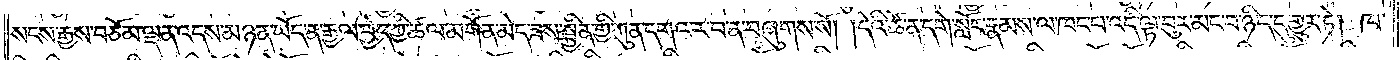སངས་རྒྱས་བཅོམ་ལྡན་འདས་མཉན་ཡོད་ན་རྒྱལ་བྱེད་ཀྱི་ཚལ་མགོན་མེད་ཟས་སྦྱིན་གྱི་ཀུན་དགའ་ར་བ་ན་བཞུགས་སོ། །དེའི་ཚེ་ན་དགེ་སློང་རྣམས་ལ་ཁང་པ་འདི་ལྟ་བུར་མང་བ་ཉིད་དུ་གྱུར་ཏེ། ཁ་
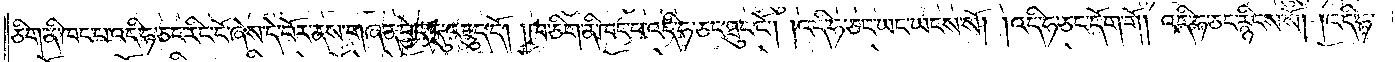ཅིག་ནི་ཁང་པ་འདི་ཧ་ཅང་རིང་ངོ་ཞེས་དེ་བོར་ནས་གཞན་བྱེད་དུ་འཇུད་དོ། །ཁ་ཅིག་ནི་ཁང་པ་འདི་ཧ་ཅང་ཐུང་ངོ༌། །འདི་ཧ་ཅང་ཡང་ཡངས་སོ། །འདི་ཧ་ཅང་དོག་གོ། འདི་ཧ་ཅང་རྙིངས་སོ། །འདི་ཧ་
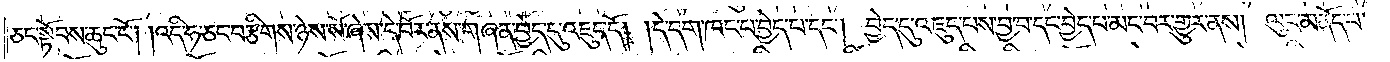ཅང་སྟོབས་ཆུང་ངོ༌། །འདི་ཧ་ཅང་བརྩིགས་ཉེས་སོ་ཞེས་དེ་བོར་ནས་གཞན་བྱེད་དུ་འཇུད་དོ། །དེ་དག་ཁང་པ་བྱེད་པ་དང༌། བྱེད་དུ་འཇུད་པས་བྱ་བ་དང་བྱེད་པ་མང་བར་གྱུར་ནས། ལུང་མནོད་པ་
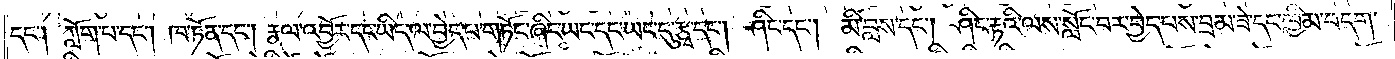དང༌། ཀློག་པ་དང༌། ཁ་ཏོན་དང༌། རྣལ་འབྱོར་དང་ཡིད་ལ་བྱེད་པ་གཏོང་ཞིང་ཡང་དང་ཡང་དུ་རྩྭ་དང༌། ཤིང་དང༌། མི་བླས་དང༌། ཤིང་རྟའི་ལས་སློང་བར་བྱེད་པས་བྲམ་ཟེ་དང་ཁྱིམ་བདག་
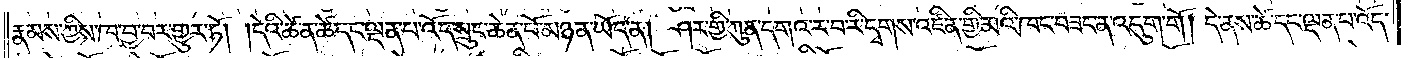རྣམས་ཀྱིས་ཁ་བྱ་བར་གྱུར་ཏོ། །དེའི་ཚེ་ན་ཚེ་དང་ལྡན་པ་འོད་སྲུང་ཆེན་པོ་མཉན་ཡོད་ན། ཤར་གྱི་ཀུན་དགའ་ར་བ་རི་དྭགས་འཛིན་གྱི་མའི་ཁང་བཟང་ན་འདུག་གོ། དེ་ནས་ཚེ་དང་ལྡན་པ་འོད་
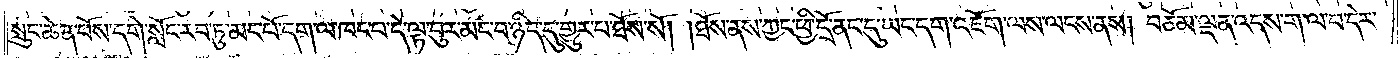སྲུང་ཆེན་པོས་དགེ་སློང་རབ་ཏུ་མང་པོ་དག་ལ་ཁང་པ་དེ་ལྟ་བུར་མང་བ་ཉིད་དུ་གྱུར་པ་ཐོས་སོ། །ཐོས་ནས་ཀྱང་ཕྱི་དྲོ་ནང་དུ་ཡང་དག་འཇོག་ལས་ལངས་ནས། བཅོམ་ལྡན་འདས་ག་ལ་བ་དེར་
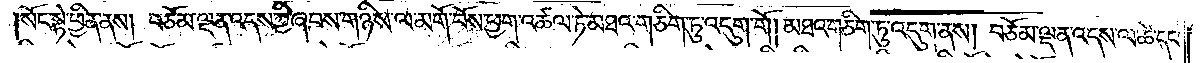སོང་སྟེ་ཕྱིན་ནས། བཅོམ་ལྡན་འདས་ཀྱི་ཞབས་གཉིས་ལ་མགོ་བོས་ཕྱག་འཚལ་ཏེ་མཐའ་གཅིག་ཏུ་འདུག་གོ། མཐའ་གཅིག་ཏུ་འདུག་ནས། བཅོམ་ལྡན་འདས་ལ་ཚེ་དང་
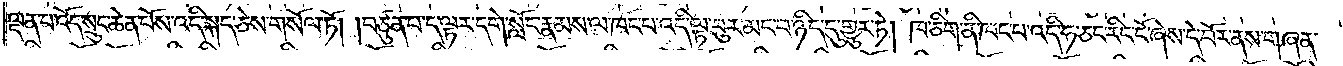ལྡན་པ་འོད་སྲུང་ཆེན་པོས་འདི་སྐད་ཅེས་གསོལ་ཏོ། །བཙུན་པ་ད་ལྟར་དགེ་སློང་རྣམས་ལ་ཁང་པ་འདི་ལྟ་བུར་མང་བ་ཉིད་དུ་གྱུར་ཏེ། ཁ་ཅིག་ནི་ཁང་པ་འདི་ཧ་ཅང་རིང་ངོ་ཞེས་དེ་བོར་ནས་གཞན་
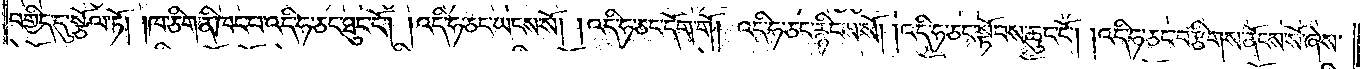བགྱིད་དུ་སྩོལ་ཏོ། །ཁ་ཅིག་ནི་ཁང་པ་འདི་ཧ་ཅང་ཐུང་ངོ༌། །འདི་ཧ་ཅང་ཡངས་སོ། །འདི་ཧ་ཅང་དོག་གོ། །འདི་ཧ་ཅང་རྙིངས་སོ། །འདི་ཧ་ཅང་སྟོབས་ཆུང་ངོ༌། །འདི་ཧ་ཅང་བརྩིགས་ནོངས་སོ་ཞེས་
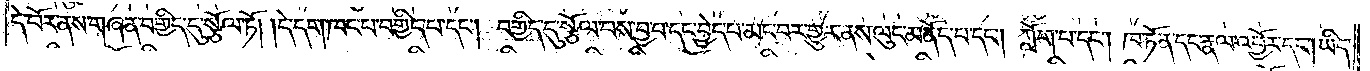དེ་བོར་ནས་གཞན་བགྱིད་དུ་སྩོལ་ཏོ། །དེ་དག་ཁང་པ་བགྱིད་པ་དང༌། བགྱིད་དུ་སྩོལ་བས་བྱ་བ་དང་བྱེད་པ་མང་བར་གྱུར་ནས་ལུང་མནོད་པ་དང༌། ཀློག་པ་དང༌། ཁ་ཏོན་དང་རྣལ་འབྱོར་དང༌། ཡིད་
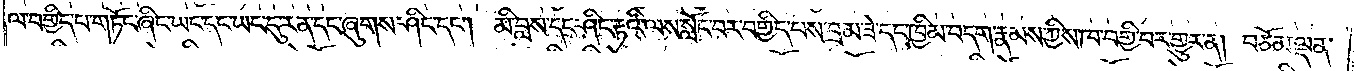ལ་བགྱིད་པ་གཏོང་ཞིང་ཡང་དང་ཡང་དུ་རན་དང་ཞུགས་ཤིང་དང༌། མི་བླས་དང་ཤིང་རྟའི་ལས་སློང་བར་བགྱིད་པས་བྲམ་ཟེ་དང་ཁྱིམ་བདག་རྣམས་ཀྱིས་ཁ་བགྱི་བར་གྱུར་ན། བཅོམ་ལྡན་
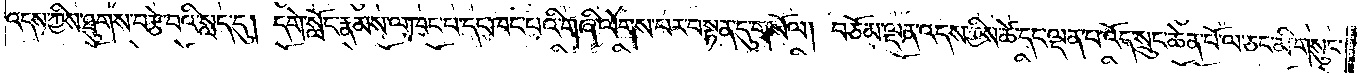འདས་ཀྱིས་ཐུགས་བརྩེ་བའི་སླད་དུ། དགེ་སློང་རྣམས་ལ་ཁང་པ་དང་ཁང་པའི་གཞི་ལེགས་པར་བསྟན་དུ་གསོལ། བཅོམ་ལྡན་འདས་ཀྱིས་ཚེ་དང་ལྡན་པ་འོད་སྲུང་ཆེན་པོ་ལ་ཅང་མི་གསུང་
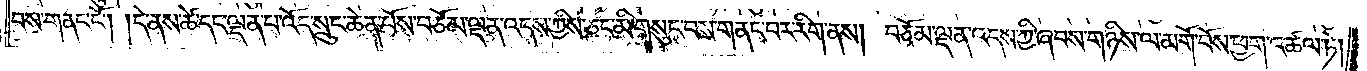བས་གནང་ངོ༌། །དེ་ནས་ཚེ་དང་ལྡན་པ་འོད་སྲུང་ཆེན་པོས་བཅོམ་ལྡན་འདས་ཀྱིས་ཅང་མི་གསུང་བས་གནང་བར་རིག་ནས། བཅོམ་ལྡན་འདས་ཀྱི་ཞབས་གཉིས་ལ་མགོ་བོས་ཕྱག་འཚལ་ཏེ།
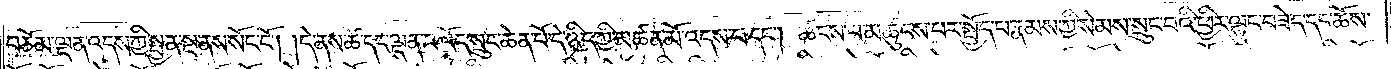བཅོམ་ལྡན་འདས་ཀྱི་སྤྱན་སྔ་ནས་སོང་ངོ༌། །དེ་ནས་ཚེ་དང་ལྡན་པ་འོད་སྲུང་ཆེན་པོ་དེ་ཉིད་ཀྱི་མཚན་མོ་འདས་པ་དང༌།  ཚངས་པ་མཚུངས་པར་སྤྱོད་པ་རྣམས་ཀྱི་སེམས་སྲུང་བའི་ཕྱིར་ལྷུང་བཟེད་དང་ཆོས་
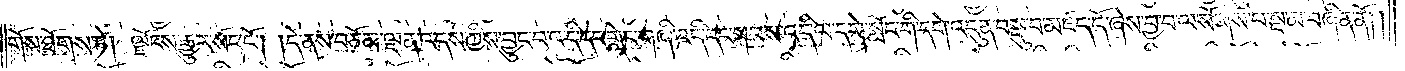གོས་ཐོགས་ཏེ། ལྗོངས་རྒྱུར་སོང་ངོ༌། །དེ་ནས་བཅོམ་ལྡན་འདས་ཀྱིས་བྱུང་བ་འདི་དང་གླེང་གཞི་འདི་དང་སྐབས་འདི་ལ་དགེ་སློང་གི་དགེ་འདུན་བསྡུ་བ་མཛད་དོ་ཞེས་བྱ་བ་ལ་སོགས་པ་སྔ་མ་བཞིན་ནོ། །
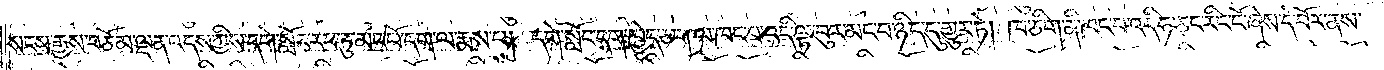སངས་རྒྱས་བཅོམ་ལྡན་འདས་ཀྱིས་དགེ་སློང་རབ་ཏུ་མང་པོ་དག་ལ་རྨས་པ། དགེ་སློང་དག་ཁྱེད་ཅག་ལ་ཁང་པ་འདི་ལྟ་བུར་མང་བ་ཉིད་དུ་གྱུར་ཏེ། ཁ་ཅིག་ནི་ཁང་པ་འདི་ཧ་ཅང་རིང་ངོ་ཞེས་དེ་བོར་ནས་
